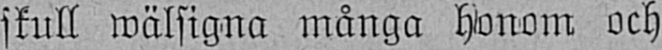skull wälsigna många honom och
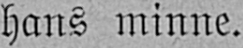hans minne.
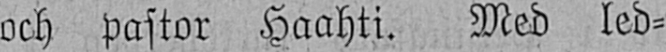och Pastor Haahti. Med led-
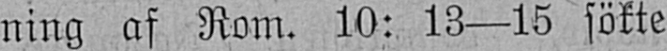ning af Rom. 10: 13—15 sökte
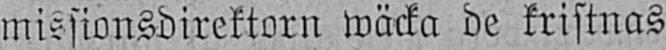missionsdirektorn wäcka de kristnas
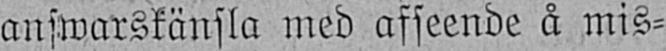answarskänsla med afseende å mis-
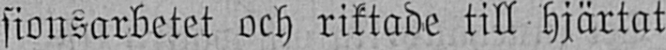sionsarbetet och riktade till hjärtat
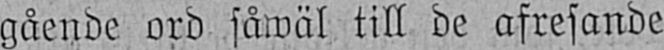gående ord såwäl till de afresande
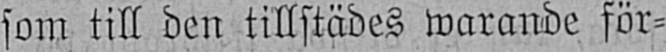som till den tillstädes warande för-
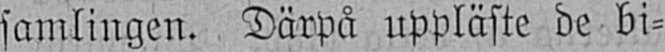samlingen. Därpå uppläste de bi-
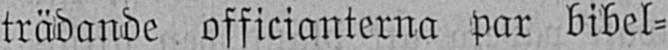trädande officianterna Par bibel-
